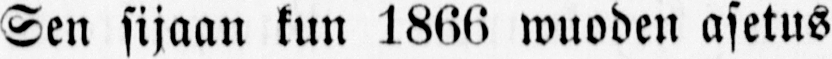Sen sijaan kun 1866 wuoden asetus
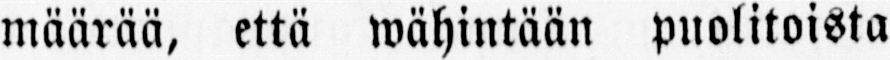määrää, että wähintään puolitoista
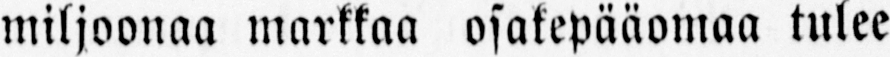miljoonaa markkaa osakepääomaa tulee
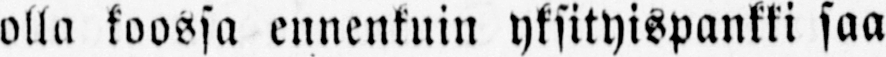olla koossa ennenkuin yksityispankki saa
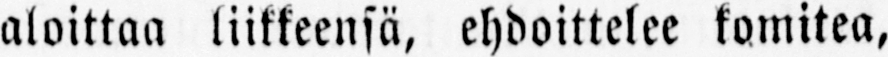aloittaa liikkeensä, ehdoittelee komitea,
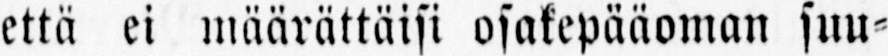että ei määrättäisi osakepääoman suu-
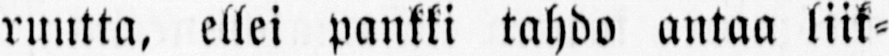ruutta, ellei pankki tahdo antaa liik-
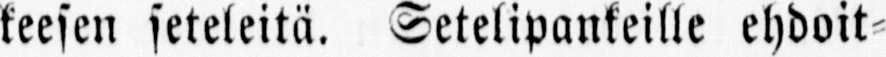keesen seteleitä. Setelipankeille ehdoit-
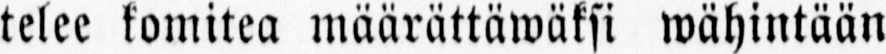telee komitea määrättäwäksi wähintään
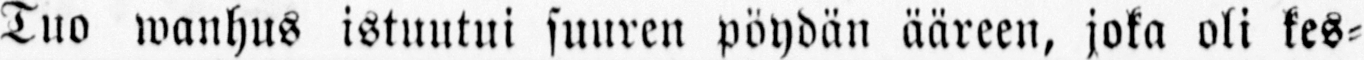Tuo wanhus istuutui suuren pöydän ääreen, joka oli kes-
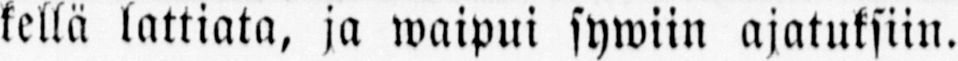kellä lattiata, ja waipui sywiin ajatuksiin.
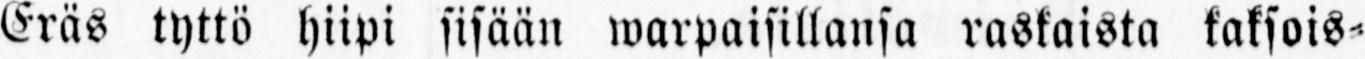Eräs tyttö hiipi sisään warpaisillansa raskaista kaksois-
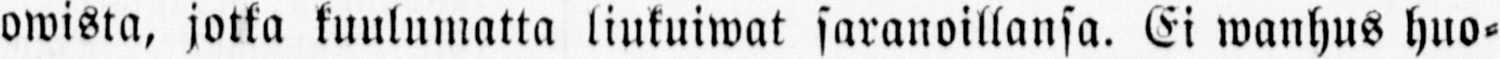owista, jotka kuulumatta liukuiwat saranoillansa. Ei wanhus huo-
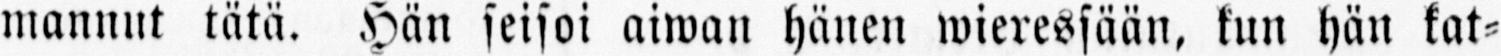mannut tätä. Hän seisoi aiwan hänen wieressään, kun hän kat-
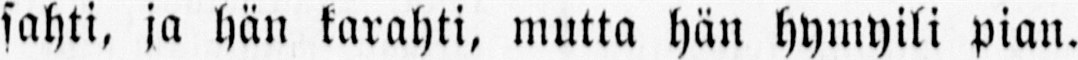sahti, ja hän karahti, mutta hän hymyili pian.
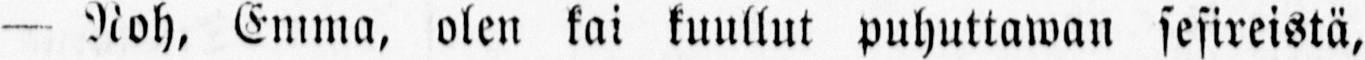— Noh, Emma, olen kai kuullut puhuttawan sesireistä,
